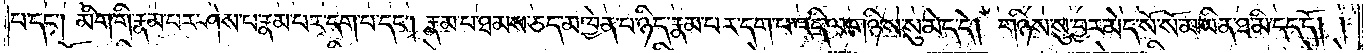པ་དང༌། མིག་གི་རྣམ་པར་ཤེས་པ་རྣམ་པར་དག་པ་དང༌། རྣམ་པ་ཐམས་ཅད་མཁྱེན་པ་ཉིད་རྣམ་པར་དག་པ་འདི་ལ་གཉིས་སུ་མེད་དེ། གཉིས་སུ་བྱར་མེད་སོ་སོ་མ་ཡིན་ཐ་མི་དད་དོ། །
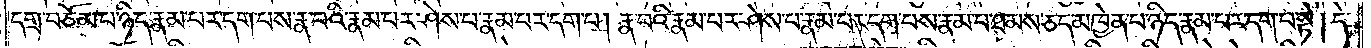དགྲ་བཅོམ་པ་ཉིད་རྣམ་པར་དག་པས་རྣ་བའི་རྣམ་པར་ཤེས་པ་རྣམ་པར་དག་པ། རྣ་བའི་རྣམ་པར་ཤེས་པ་རྣམ་པར་དག་པས་རྣམ་པ་ཐམས་ཅད་མཁྱེན་པ་ཉིད་རྣམ་པར་དག་པ་སྟེ། དེ་
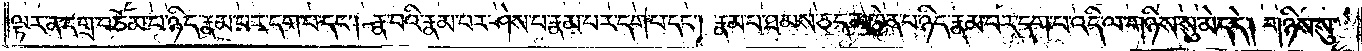ལྟར་ན་དགྲ་བཅོམ་པ་ཉིད་རྣམ་པར་དག་པ་དང༌། རྣ་བའི་རྣམ་པར་ཤེས་པ་རྣམ་པར་དག་པ་དང༌། རྣམ་པ་ཐམས་ཅད་མཁྱེན་པ་ཉིད་རྣམ་པར་དག་པ་འདི་ལ་གཉིས་སུ་མེད་དེ། གཉིས་སུ་
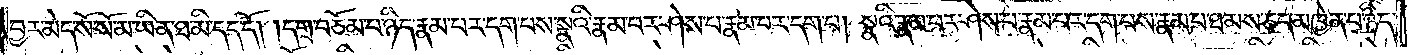བྱར་མེད་སོ་སོ་མ་ཡིན་ཐ་མི་དད་དོ། །དགྲ་བཅོམ་པ་ཉིད་རྣམ་པར་དག་པས་སྣའི་རྣམ་པར་ཤེས་པ་རྣམ་པར་དག་པ། སྣའི་རྣམ་པར་ཤེས་པ་རྣམ་པར་དག་པས་རྣམ་པ་ཐམས་ཅད་མཁྱེན་པ་ཉིད་
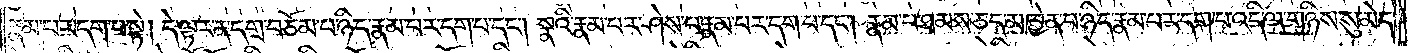རྣམ་པར་དག་པ་སྟེ། དེ་ལྟར་ན་དགྲ་བཅོམ་པ་ཉིད་རྣམ་པར་དག་པ་དང༌། སྣའི་རྣམ་པར་ཤེས་པ་རྣམ་པར་དག་པ་དང༌། རྣམ་པ་ཐམས་ཅད་མཁྱེན་པ་ཉིད་རྣམ་པར་དག་པ་འདི་ལ་གཉིས་སུ་མེད་
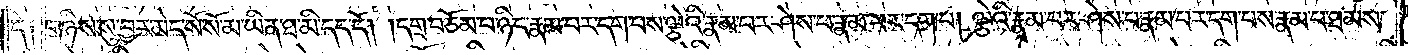དེ༑ གཉིས་སུ་བྱར་མེད་སོ་སོ་མ་ཡིན་ཐ་མི་དད་དོ། །དགྲ་བཅོམ་པ་ཉིད་རྣམ་པར་དག་པས་ལྕེའི་རྣམ་པར་ཤེས་པ་རྣམ་པར་དག་པ། ལྕེའི་རྣམ་པར་ཤེས་པ་རྣམ་པར་དག་པས་རྣམ་པ་ཐམས་
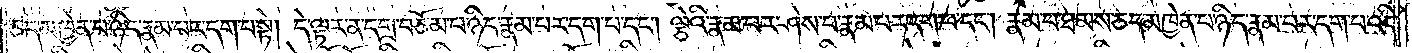ཅད་མཁྱེན་པ་ཉིད་རྣམ་པར་དག་པ་སྟེ། དེ་ལྟར་ན་དགྲ་བཅོམ་པ་ཉིད་རྣམ་པར་དག་པ་དང༌། ལྕེའི་རྣམ་པར་ཤེས་པ་རྣམ་པར་དག་པ་དང༌། རྣམ་པ་ཐམས་ཅད་མཁྱེན་པ་ཉིད་རྣམ་པར་དག་པ་འདི་
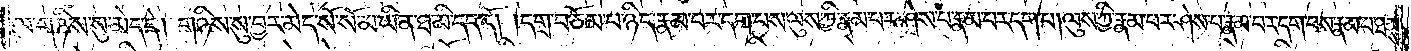ལ་གཉིས་སུ་མེད་དེ། གཉིས་སུ་བྱར་མེད་སོ་སོ་མ་ཡིན་ཐ་མི་དད་དོ། །དགྲ་བཅོམ་པ་ཉིད་རྣམ་པར་དག་པས་ལུས་ཀྱི་རྣམ་པར་ཤེས་པ་རྣམ་པར་དག་པ། ལུས་ཀྱི་རྣམ་པར་ཤེས་པ་རྣམ་པར་དག་པས་རྣམ་པ་ཐམས་
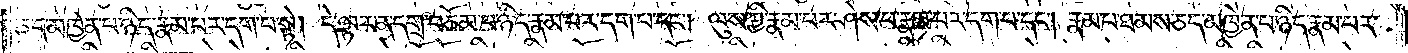ཅད་མཁྱེན་པ་ཉིད་རྣམ་པར་དག་པ་སྟེ། དེ་ལྟར་ན་དགྲ་བཅོམ་པ་ཉིད་རྣམ་པར་དག་པ་དང༌། ལུས་ཀྱི་རྣམ་པར་ཤེས་པ་རྣམ་པར་དག་པ་དང༌། རྣམ་པ་ཐམས་ཅད་མཁྱེན་པ་ཉིད་རྣམ་པར་
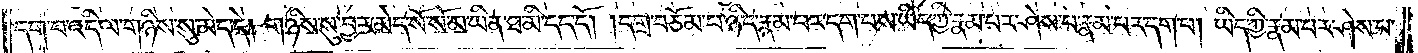དག་པ་འདི་ལ་གཉིས་སུ་མེད་དེ། གཉིས་སུ་བྱར་མེད་སོ་སོ་མ་ཡིན་ཐ་མི་དད་དོ། །དགྲ་བཅོམ་པ་ཉིད་རྣམ་པར་དག་པས་ཡིད་ཀྱི་རྣམ་པར་ཤེས་པ་རྣམ་པར་དག་པ། ཡིད་ཀྱི་རྣམ་པར་ཤེས་པ་
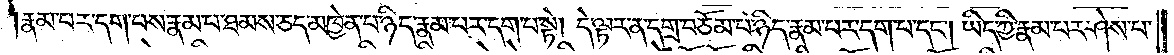རྣམ་པར་དག་པས་རྣམ་པ་ཐམས་ཅད་མཁྱེན་པ་ཉིད་རྣམ་པར་དག་པ་སྟེ། དེ་ལྟར་ན་དགྲ་བཅོམ་པ་ཉིད་རྣམ་པར་དག་པ་དང༌། ཡིད་ཀྱི་རྣམ་པར་ཤེས་པ་
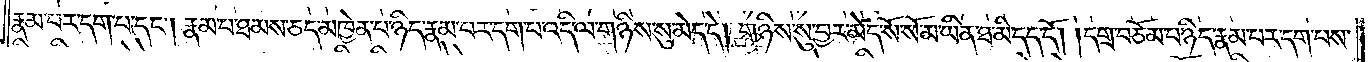རྣམ་པར་དག་པ་དང༌། རྣམ་པ་ཐམས་ཅད་མཁྱེན་པ་ཉིད་རྣམ་པར་དག་པ་འདི་ལ་གཉིས་སུ་མེད་དེ། གཉིས་སུ་བྱར་མེད་སོ་སོ་མ་ཡིན་ཐ་མི་དད་དོ། །དགྲ་བཅོམ་པ་ཉིད་རྣམ་པར་དག་པས་
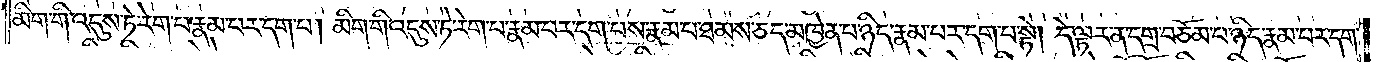མིག་གི་འདུས་ཏེ་རེག་པ་རྣམ་པར་དག་པ། མིག་གི་འདུས་ཏེ་རེག་པ་རྣམ་པར་དག་པས་རྣམ་པ་ཐམས་ཅད་མཁྱེན་པ་ཉིད་རྣམ་པར་དག་པ་སྟེ། དེ་ལྟར་ན་དགྲ་བཅོམ་པ་ཉིད་རྣམ་པར་དག་
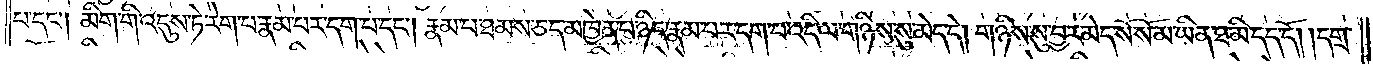པ་དང༌། མིག་གི་འདུས་ཏེ་རེག་པ་རྣམ་པར་དག་པ་དང༌། རྣམ་པ་ཐམས་ཅད་མཁྱེན་པ་ཉིད་རྣམ་པར་དག་པ་འདི་ལ་གཉིས་སུ་མེད་དེ། གཉིས་སུ་བྱར་མེད་སོ་སོ་མ་ཡིན་ཐ་མི་དད་དོ། །དགྲ་
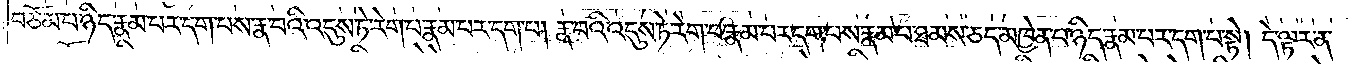བཅོམ་པ་ཉིད་རྣམ་པར་དག་པས་རྣ་བའི་འདུས་ཏེ་རེག་པ་རྣམ་པར་དག་པ། རྣ་བའི་འདུས་ཏེ་རེག་པ་རྣམ་པར་དག་པས་རྣམ་པ་ཐམས་ཅད་མཁྱེན་པ་ཉིད་རྣམ་པར་དག་པ་སྟེ། དེ་ལྟར་ན་
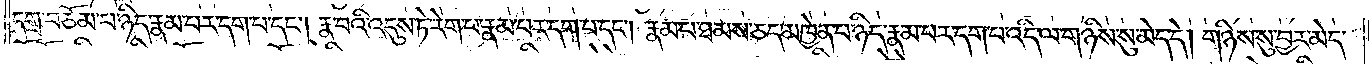དགྲ་བཅོམ་པ་ཉིད་རྣམ་པར་དག་པ་དང༌། རྣ་བའི་འདུས་ཏེ་རེག་པ་རྣམ་པར་དག་པ་དང༌། རྣམ་པ་ཐམས་ཅད་མཁྱེན་པ་ཉིད་རྣམ་པར་དག་པ་འདི་ལ་གཉིས་སུ་མེད་དེ། གཉིས་སུ་བྱར་མེད་
